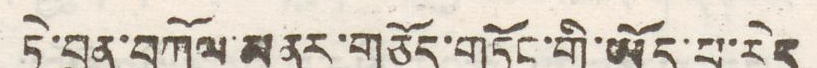ཏེ་བྲན་བཀོལ་མནར་གཅོད་གཏིང་གི་ཡོད་པ་རེད
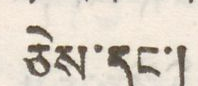ཅེས་དང་།
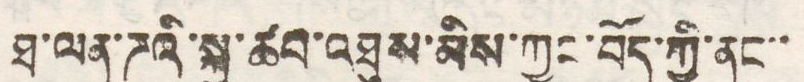ཐ་ལན་ཌའི་སྐུ་ཚབ་འཐུས་མིས་ཀྱང་བོད་ཀྱི་ནང་་
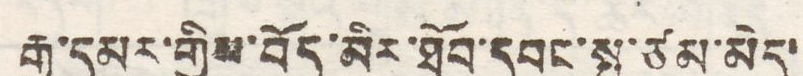རྒྱ་དམར་གྱིས་བོད་མིར་ཐོབ་དབང་སྤུ་ཙམ་མེད་
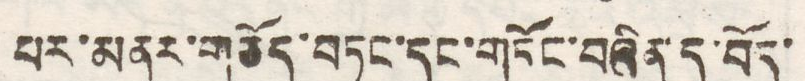པར་མནར་གཅོད་བཏང་དང་གཏོང་བཞིན་དུ་བོད་
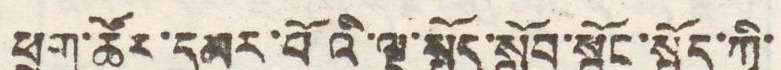ཕྲུག་ཚོར་དམར་པོའི་ལྟ་སྤྱོད་སློབ་སྦྱོང་སྤྲོད་ཀྱི་
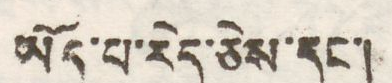ཡོད་པ་རེད་ཅེས་དང་།
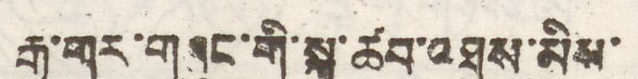རྒྱ་གར་གཞུང་གི་སྐུ་ཚབ་འཐུས་མིས་
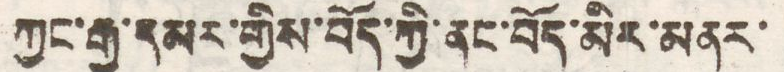ཀྱང་རྒྱ་དམར་གྱིས་བོད་ཀྱི་ནང་བོད་མིར་མནར་
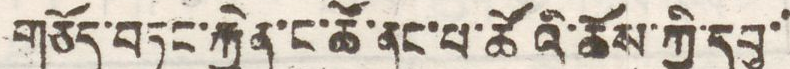གཅོད་བཏང་རྐྱོན་ང་ཚོ་ནང་པ་ཚོའི་ཆོས་ཀྱི་དབུ་
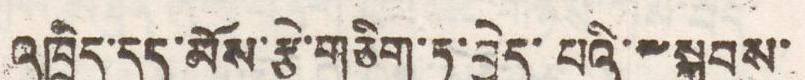འཁྲིད་དད་མོས་རྩེ་གཅིག་ཏུ་བྱེད་པའི་༸སྐྱབས་
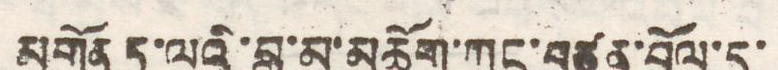མགོན་ཏཱ་ལའི་བླ་མ་མཆོག་ཀྱང་བཙན་བྱོལ་དུ་
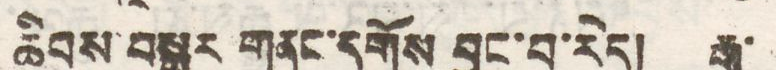ཆིབས་བསྒྱུར གནང་དགོས བྱུང་བ་རེད། རྒྱ་
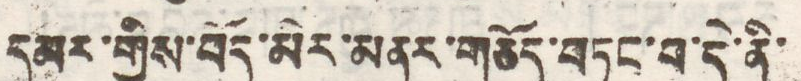དམར་གྱིས་བོད་མིར་མནར་གཅོད་བཏང་བ་དེ་ནི་
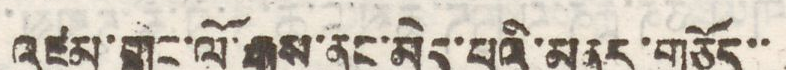འཛམ་གླིང་ལོ་རྒྱུས་ནང་མེད་པའི་མནར་གཅོད་་
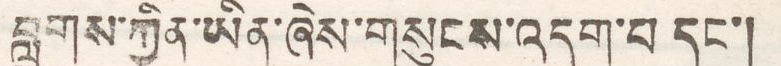བླུགས་ཀྱིན་ཡིན་ཞེས་གསུངས་འདུག་པ དང་།
